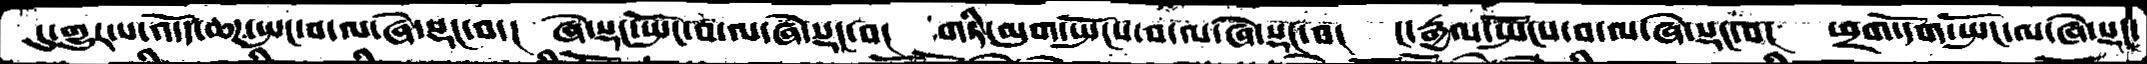དུ་གྱུར་པ་འདོད་ཆཌ་སྤང་བ་ལ་ཞེ་སྡང་བ་།  ཞེ་སྡང་སྤོང་བ་ལ་ཞེ་སྡང་བ།  གཏི་མུག་སྤོངས་བ་ལ་ཞེ་སྡང་བ།  ང་རྒྱལ་སྤོངས་བ་ལ་ཞེ་སྡང་བ།  ཕྲག་དོག་སྤོང་ལ་ཞེ་སྡང་
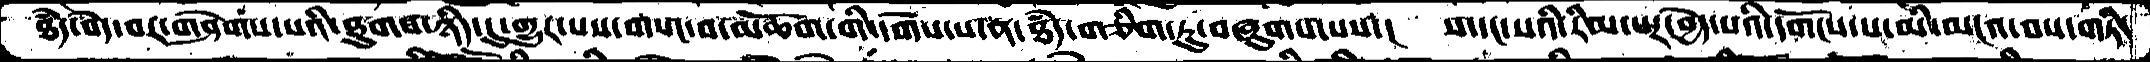ཐཾད་བདེ་བར་གཤེགས་པའི་ཐུགས་ཉིད་དུ་གྱུར་པས་གསང་བ་མཆོག་གི་དགོས་པ་ན་ཐཾད་གཅིག་ཏུ་བཞུགས་པས་།  ས་དང་སའི་རིམ་པར་བྱེད་པའི་དགོངས་པ་མི་མངའ་བས་གཏི་
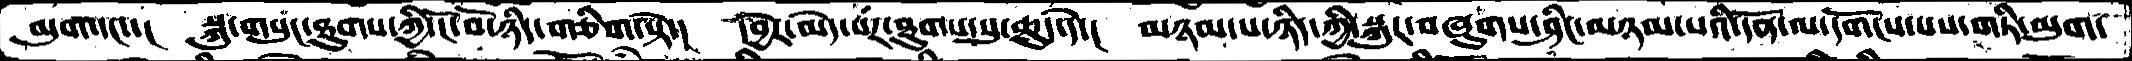མུག་དང་་།  སྐུ་གསུང་ཐུགས་ཀྱི་ངོ་བོ་ཉིད་གཅིག་སྟེ་།  དབྱེར་མེད་པར་ཐུགས་སུ་ཆུད་དེ་།  མཉམ་པ་ཉིད་ཀྱི་སྐུར་བཞུགས་ཤིང་མཉམ་པའི་དོན་ལ་དགོངས་པས་གཏི་མུག་
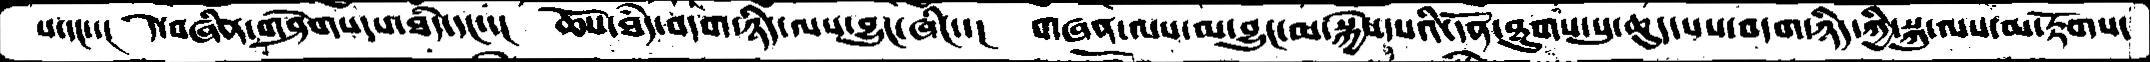པ་དང་་།  དེ་བཞིན་གཤེགས་པ་ཐདཾ་དང་་།  ཆོས་ཐཾད་བདག་ཉིད་ལས་བྱུང་ཞིང་།  གཞན་ལས་མ་བྱུང་མ་སྐྱེས་པའི་དོན་ཐུགས་སུ་ཆུད་པས་བདག་ཉིད་ཀྱི་སྐུ་ལས་མ་རྟོགས་
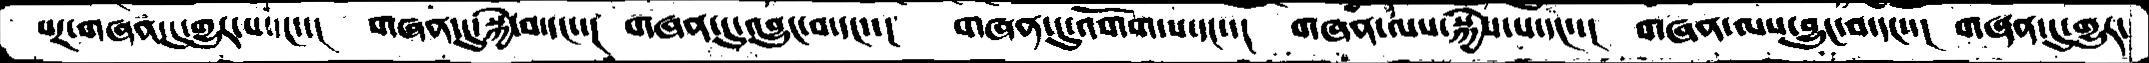པར་གཞན་དུ་གྱུར་པ་དང་་།  གཞན་དུ་སྐྱེ་བ་དང་་།  གཞན་དུ་འབྱུང་བ་དང་་།  གཞན་དུ་འགོགས་པ་དང་་།  གཞན་ལས་སྐྱེས་པ་དང་་།  གཞན་ལས་བྱུང་བ་དང་་།  གཞན་དུ་གྱུར་
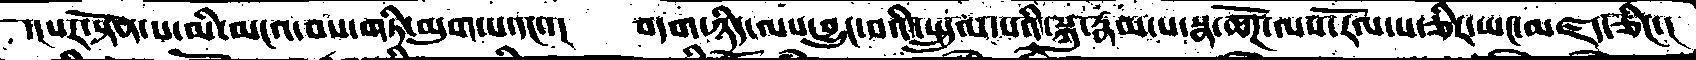་།པར་སྟོན་པ་མི་མངའ་བས་གཏི་མུག་པ་དང་།    བདག་ཉིད་ལས་བྱུང་བའི་སྤྲུལ་པའི་སྐུ་རྣམ་པ་སྣ་ཚོཌ་ལས་རོལ་པ་ཅིར་ཡང་མཛད་ཅིང་།
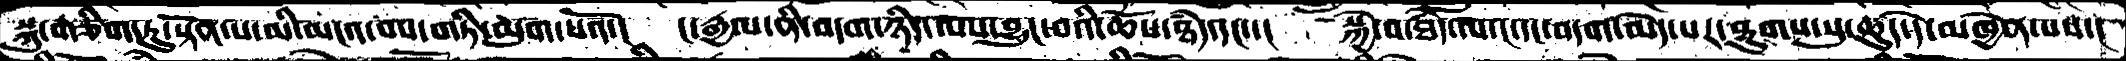སྐུ་གཅིག་ཏུ་སྟོན་པ་མི་མངའ་བས་གཏི་མུག་པའོ་།   ང་རྒྱལ་ནི་བདག་ཉིད་ལས་བྱུང་བའི་ཆོས་ཐཾད་དང་།    སྐྱེ་བ་ཐཾད་ལ་ང་དང་བདག་མེད་པར་ཐུགས་སུ་ཆུད་དེ་མཁྱེན་པས་།
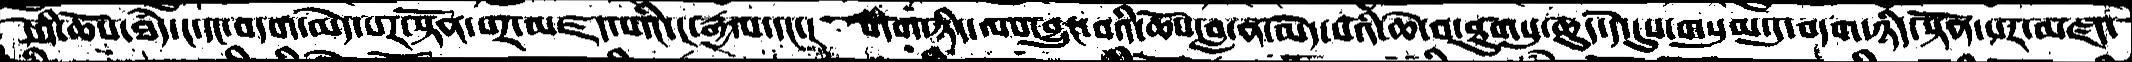དེའི་ཆོས་ཐཾད་ང་དང་བདག་མེད་པར་སྟོན་པར་མཛད་པའི་ང་རྒྱལ་དང་།   བདག་ཉིད་ལས་བྱུང་བའི་ཆོས་བླ་ན་མེད་པའི་ཆེ་བ་ཐུགསུ་ཆུད་དེ་དུས་གསུམ་དུ་བདག་ཉིད་སྟོན་པར་མཛད་
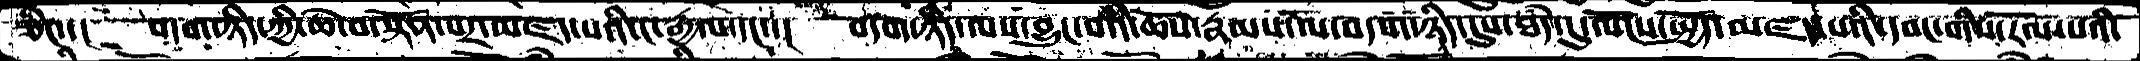ཅིང་་།   བདག་ཉིད་ཀྱི་ཆེ་བ་སྟོན་པར་མཛད་པའི་ང་རྒྱལ་དང་།   བདག་ཉིད་ལས་བྱུང་བའི་ཆོས་རྣམས་ལ་བདག་ཉིད་དུས་ཐཾད་དུ་ལོངས་སྤྱོད་མཛད་པའི་དབང་གིས་རོལ་པའི་
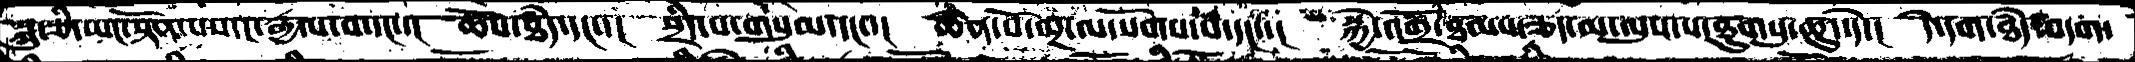སྐུ་ཅི་ཡང་སྟོན་པས་ང་རྒྱལ་བ་དང་།  ཆོས་ཐཾད་དང་་།   སྲིད་པ་གསུམ་དང་་།   ཆེན་པོ་ལྔ་ལ་སོགས་པ་དང་་།    སྐྱེ་འགྲོ་ཐམས་ཅད་མ་ལུས་པ་ཐུགསུ་ཆུད་དེ་།   དེ་དག་ཐཾད་བདག་
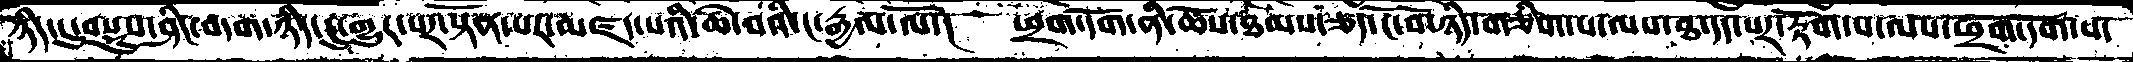ཉིད་དུ་བསྡུས་ཤིང་བདག་ཉིད་དུ་གྱུར་པར་སྟོན་པར་མཛད་པའི་ཆེ་བའི་ང་རྒྱལ་ལོ་།  ཕྲག་དོག་ནི་ཆོས་ཐམས་ཅད་ངོ་བོ་ཉིད་གཅིག་པ་ལས་ཐ་དད་པར་རྟོག་པ་ལས་ཕྲག་དོག་པ་
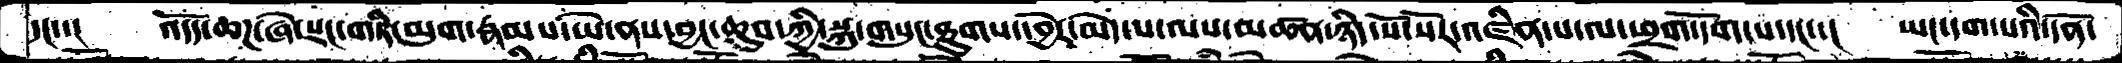དང་་།  འདོད་ཆཌ་ཞེ་སྡང་གཏི་མུག་རྣམས་ཡེ་ནས་བྱང་ཆུབ་ཀྱི་སྐུ་གསུང་ཐུགས་དབྱེར་མེད་པ་ལས་མཚན་ཉིད་སོ་སོར་འཛིན་པ་ལ་ཕྲག་དོག་པ་དང་་།  ཡང་དག་པའི་དོན་
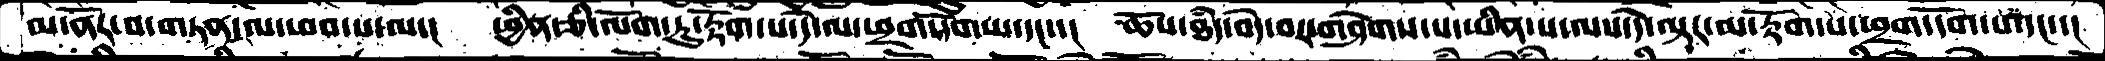མ་ནོར་བ་གཏན་ལ་ཕབ་པ་ལ་།  ཕྱིན་ཅི་ལོག་ཏུ་རྟོག་པ་དེ་ལ་ཕྲག་དོག་པ་དང་་།  ཆོས་ཐཾད་བདེ་བར་གཤེགས་པ་ཡིན་པ་ལས་དེ་ལྟར་མ་རྟོག་པ་ཕྲག་དོག་པ་དང་་།
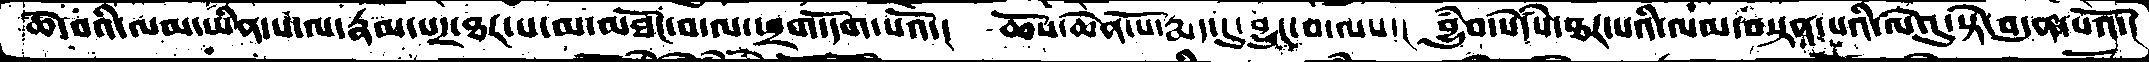ཆེ་བའི་ལམ་ཡིན་པ་ལ་རྣམ་པར་ཐར་པ་མ་མཐོང་བ་ལ་ཕྲག་དོག་པའོ་།  ཆོས་ཆེན་པོ་རྨད་དུ་བྱུང་བ་ལས་།  བྱུཾབ་སེདཾས་ཐར་པའི་ལམ་བསྟན་པའི་ལེའུ་སྟེ་བདུན་པའོ་།
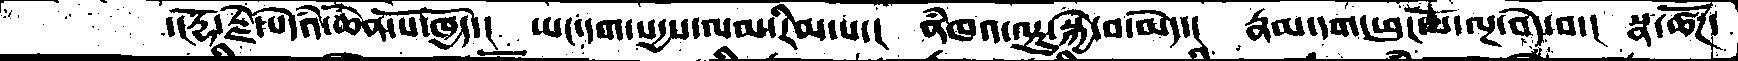་།རྡོ་རྗེ་སེདཾའ་ཆེན་པོ་ཁྱོད་།  ཡང་དག་སདྱས་ལམ་རིམ་པ་།  ནཾཁའ་ལྟུ་སྐྱེ་བ་མེད་།  རྣམ་དག་ཕུང་པོ་ལྔ་བདེ་བ་།  སྣ་ཚོཌ་
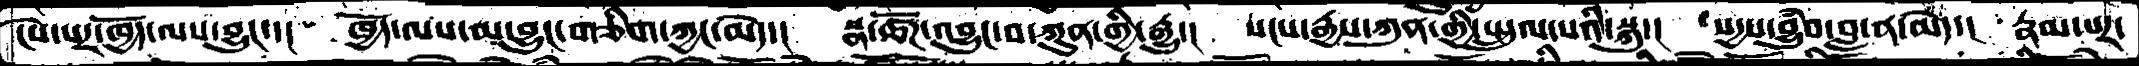ངེས་པར་ཁྱོད་ལས་བྱུང་་།  ཁྱོད་ལས་མ་བྱུང་གཅིག་ཀྱང་མེད་།  སྣ་ཚོཌ་འབྱུང་བ་ཀུན་གྱི་རྒྱུ་།  སངས་རྒྱས་ཀུན་གྱི་སྤྲུལ་པའི་སྐུ་།  སདྱས་བྱུཾབ་བླ་ན་མེད་།  རྣམ་པར་
